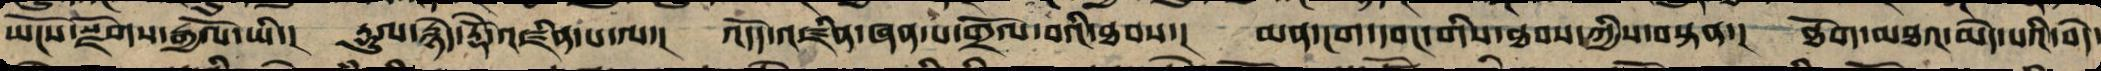ཡོངས་སྫོགས་རྒྱལོ་ཡི་། རྡུལ་སྙེད་རྡོེ་འཛིན་པ་ལ་། འདོད་འཛིན་ཞན་པ་གྲོལ་བའི་ཐབས་། མན་ངག་དབང་གི་ཐབས་ཀྱིས་བསྟན་། ཐོག་མཐའ་མེད་པའི་བདེ་
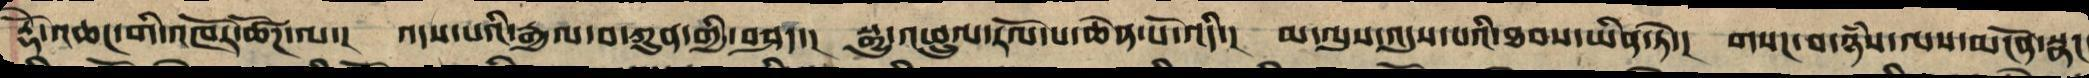རྡོེ་འཆང་བའི་འཁོར་ཚོཌ་ལ་། འདས་པའི་རྒྱལ་བ་ཀུན་གྱིས་བཤད་། སྒྱུ་འཕྲུལ་རོལ་པ་ཆེན་པོ་འདི་། མ་ལུས་འདུས་པའི་ཐབས་ཡིན་ཏེ་། གསང་བ་ཉཾས་ལས་མངོན་སྣང
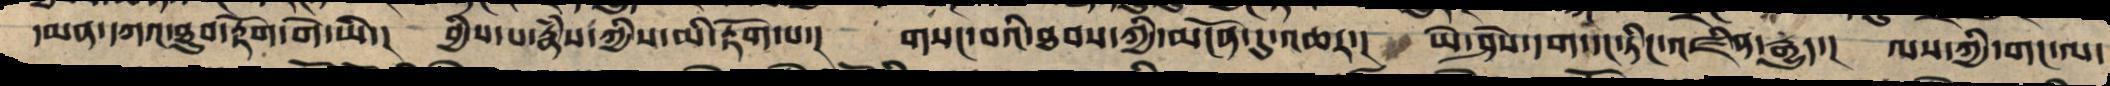དམན་དཀའ་ཐུབ་རྟོག་གེ་ཡི་། བྱིས་པ་རྣཾས་ཀྱིས་མི་རྟོགས་་པ། གསང་བའི་ཐབས་ཀྱིས་མངོན་དུ་འཆར་། ཡེ་ཤེས་དག་དང་ཏིང་འཛིན་རྒྱུད་། ལས་ཀྱི་གང་ལ་
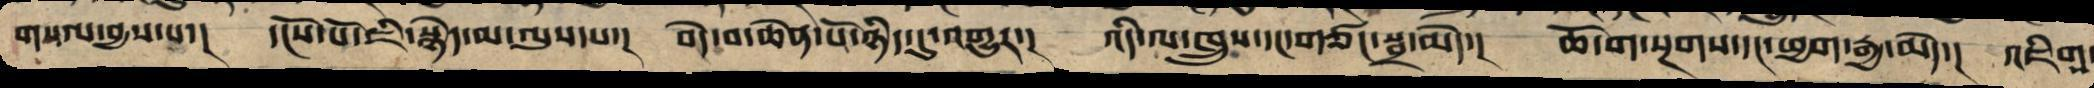གསལ་བྱས་པ་། དངོས་པོ་ཇི་སྙེད་མ་ལུས་པ་། བདེ་བ་ཆེན་པོ་ཉིད་དུ་འགྱུར་། འདི་ལ་ཁྲུས་དང་གཙང་སྦྲ་མེད་། ཆོ་ག་སྔགས་དང་ཕྱག་རྒྱ་མེད་། འཇིགས
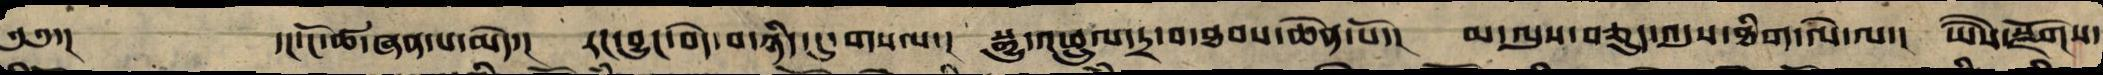༄༅་།        དང་ངོ་ཚ་ཞན་པ་མེད་། རང་བྱུང་བདེ་བ་ཉིད་དུ་གསལ་། སྒྱུ་འཕྲུལ་དྲ་བ་ཐབས་ཆེན་པོ་། མ་ལུས་བཅུད་འདུས་ཐིག་ལེ་ལ་། ཡཻས་སྫོགས་
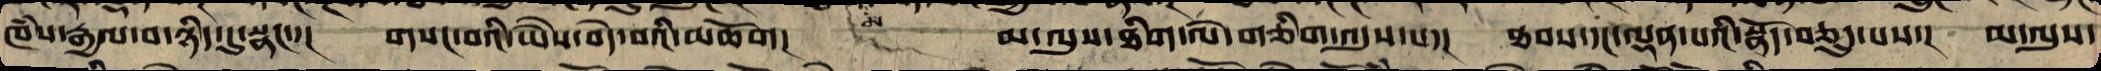ཁཾས་རྒྱལ་བ་ཉིད་དུ་སྣང་་། གསང་བའི་ཡཻས་བདེ་བའི་མཆོག།        མ་ལུས་ཐིག་ལེ་གཅིག་འདུས་པ་། ཐབས་དང་ལྡན་པའི་སྣོད་བཅུད་པས་། མ་ལུས་
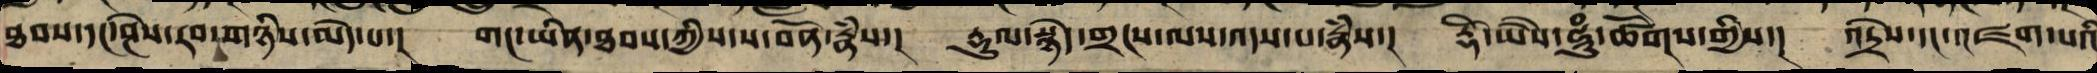ཐབས་དང་ཤེས་རབ་གཉིས་མེད་པ་། གང་ཡིན་ཐབས་ཀྱི་ས་བོན་རྣཾས་། རྡུལ་སྙེད་གྲངས་ལས་འདས་པ་རྣཾས་། རྡོཻ་ཡཻས་ཧཱུྃ་ཚོགས་གྱིས་། འདྲེས་དང་འཛག་པའི
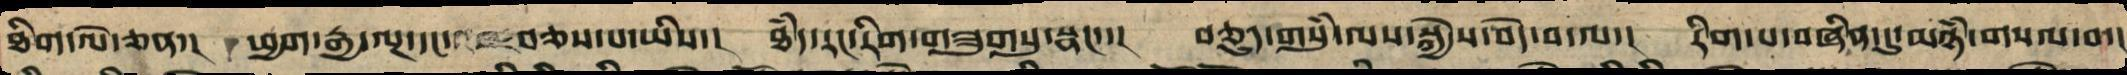ཐིག་ལེ་ཅན་། ཕྱག་རྒྱ་ལྔ་དང་    བཅས་པ་ཡིས་། ཐཾད་རང་རིག་གཟུགསུ་སྣང་་། བཅུད་གསུཾ་ལས་སྐྱེས་བདེ་བ་ལ་། རིག་པ་བཞིན་དུ་མཉཾ་གསལ་བ་།
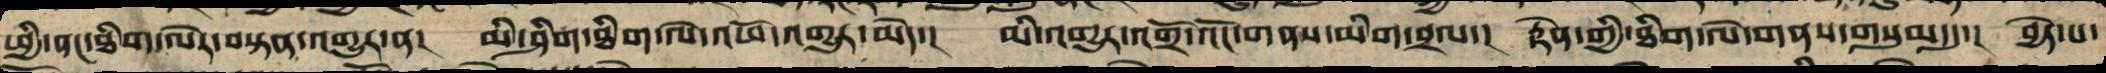ཕྱི་ནང་ཐིག་ལེར་བསྟན་འགྱུར་ན། མི་ཤིག་ཐིག་ལེ་འཕོ་འགྱུར་མེད་། མི་འགྱུར་འགྲོ་འོང་གནས་མིག་བྲལ་། རྟེན་གྱི་ཐིག་ལེ་གནས་གསུམ་དུ་། བྱེད་པ་
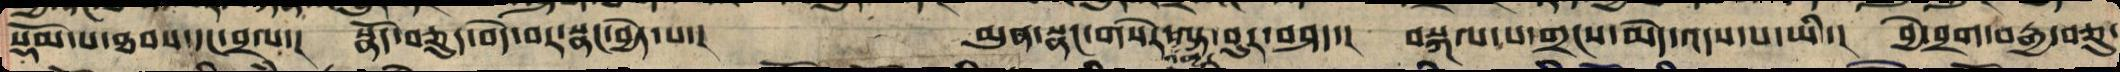སྡོམ་པ་ཐབས་དང་བྲལ་། སྣོད་བཅུད་བདེ་བར་སྣང་བྱེད་པ་།     མུན་སྣང་གསེར་ལྟ་བུར་བཤད་། བསྐལ་པ་གྲངས་མེད་འདས་པ་ཡི་། བྱེ་ཕྲག་བརྒྱད་ཅུ་
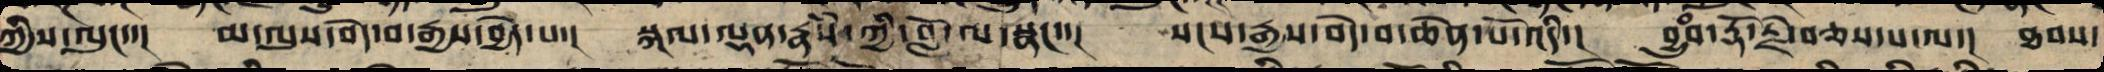ཀྱིས་ལུང་་།  མ་ལུས་བདེ་བ་རྒྱས་བྱེད་པ་།  སྐལ་ལྡན་རྣཾས་ཀྱི་བློ་ལ་སྣང་་། སངས་རྒྱས་བདེ་བ་ཆེན་པོ་འདི་།  བྱུཾབ་རྡོ་རྗེ་བཅས་པ་ལ་། ཐབས་
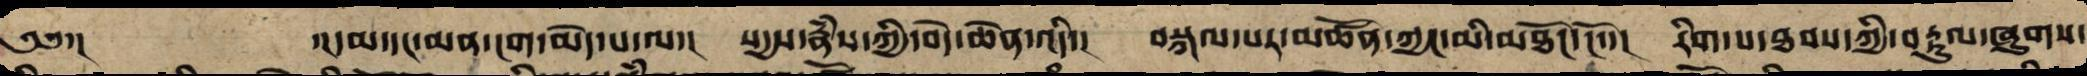༄༅་། ་།དམ་དང་མན་ངག་མེད་པ་ལ་། སདྱས་རྣཾས་ཀྱི་བདེ་ཆེན་འདི་། བསྐལ་པར་མཚོན་ཀྱང་མི་མཐོང་ངོ་་། རིག་པ་ཐབས་ཀྱི་བརྟུལ་ཞུགས་
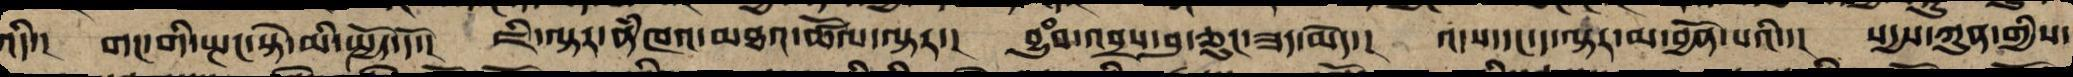འདི་། གང་གིས་སྤང་ཏེ་མི་སྤྱོད་དོ་། ཇི་ལྟར་ནཾཁའི་མཐའ་ཚོལ་ལྟར་། བྱུཾབ་འབྲས་བུ་ཅུང་ཟད་མེད་། འདས་དང་ད་ལྟར་མ་བྱོན་པའི་། སདྱས་ཀུན་གྱིས་
